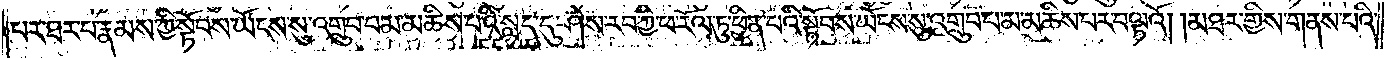པར་ཐར་པ་རྣམས་ཀྱི་སྟོབས་ཡོངས་སུ་འགྲུབ་པ་མ་མཆིས་པའི་སླད་དུ་ཤེས་རབ་ཀྱི་ཕ་རོལ་ཏུ་ཕྱིན་པའི་སྟོབས་ཡོངས་སུ་འགྲུབ་པ་མ་མཆིས་པར་བལྟའོ། །མཐར་གྱིས་གནས་པའི་
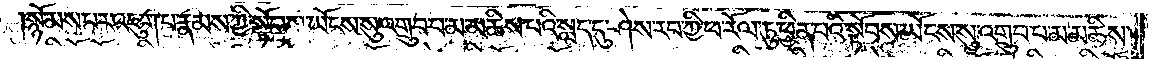སྙོམས་པར་འཇུག་པ་རྣམས་ཀྱི་སྟོབས་ཡོངས་སུ་འགྲུབ་པ་མ་མཆིས་པའི་སླད་དུ་ཤེས་རབ་ཀྱི་ཕ་རོལ་ཏུ་ཕྱིན་པའི་སྟོབས་ཡོངས་སུ་འགྲུབ་པ་མ་མཆིས་
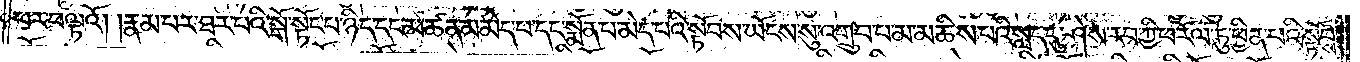པར་བལྟའོ། །རྣམ་པར་ཐར་པའི་སྒོ་སྟོང་པ་ཉིད་དང་མཚན་མ་མེད་པ་དང་སྨོན་པ་མེད་པའི་སྟོབས་ཡོངས་སུ་འགྲུབ་པ་མ་མཆིས་པའི་སླད་དུ་ཤེས་རབ་ཀྱི་ཕ་རོལ་ཏུ་ཕྱིན་པའི་སྟོབས་
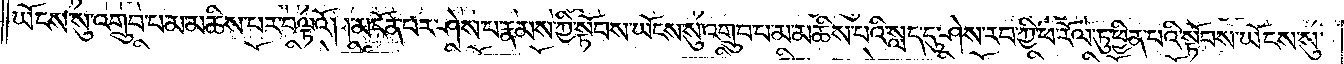ཡོངས་སུ་འགྲུབ་པ་མ་མཆིས་པར་བལྟའོ། །མངོན་པར་ཤེས་པ་རྣམས་ཀྱི་སྟོབས་ཡོངས་སུ་འགྲུབ་པ་མ་མཆིས་པའི་སླད་དུ་ཤེས་རབ་ཀྱི་ཕ་རོལ་ཏུ་ཕྱིན་པའི་སྟོབས་ཡོངས་སུ་
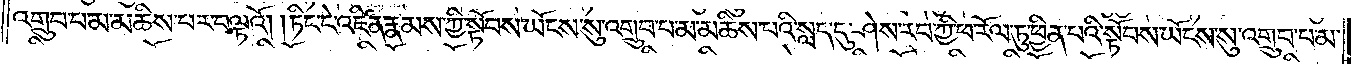འགྲུབ་པ་མ་མཆིས་པར་བལྟའོ། །ཏིང་ངེ་འཛིན་རྣམས་ཀྱི་སྟོབས་ཡོངས་སུ་འགྲུབ་པ་མ་མཆིས་པའི་སླད་དུ་ཤེས་རབ་ཀྱི་ཕ་རོལ་ཏུ་ཕྱིན་པའི་སྟོབས་ཡོངས་སུ་འགྲུབ་པ་མ་
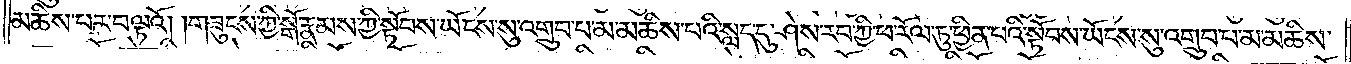མཆིས་པར་བལྟའོ། །གཟུངས་ཀྱི་སྒོ་རྣམས་ཀྱི་སྟོབས་ཡོངས་སུ་འགྲུབ་པ་མ་མཆིས་པའི་སླད་དུ་ཤེས་རབ་ཀྱི་ཕ་རོལ་ཏུ་ཕྱིན་པའི་སྟོབས་ཡོངས་སུ་འགྲུབ་པ་མ་མཆིས་
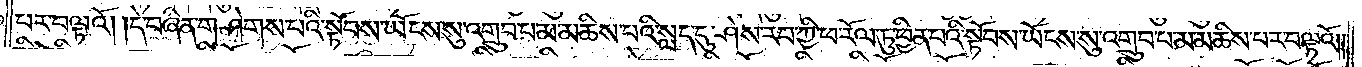པར་བལྟའོ། །དེ་བཞིན་གཤེགས་པའི་སྟོབས་རྣམས་ཀྱི་སྟོབས་ཡོངས་སུ་འགྲུབ་པ་མ་མཆིས་པའི་སླད་དུ་ཤེས་རབ་ཀྱི་ཕ་རོལ་ཏུ་ཕྱིན་པའི་སྟོབས་ཡོངས་སུ་འགྲུབ་པ་མ་མཆིས་པར་བལྟའོ། །
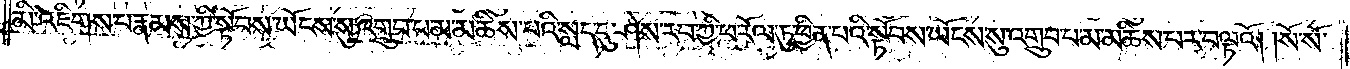མི་འཇིགས་པ་རྣམས་ཀྱི་སྟོབས་ཡོངས་སུ་འགྲུབ་པ་མ་མཆིས་པའི་སླད་དུ་ཤེས་རབ་ཀྱི་ཕ་རོལ་ཏུ་ཕྱིན་པའི་སྟོབས་ཡོངས་སུ་འགྲུབ་པ་མ་མཆིས་པར་བལྟའོ། །སོ་སོ་
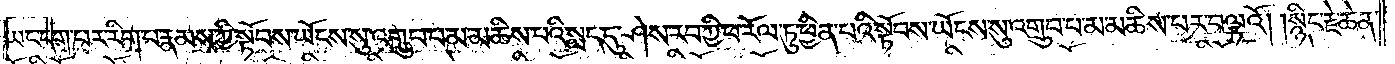ཡང་དག་པར་རིག་པ་རྣམས་ཀྱི་སྟོབས་ཡོངས་སུ་འགྲུབ་པ་མ་མཆིས་པའི་སླད་དུ་ཤེས་རབ་ཀྱི་ཕ་རོལ་ཏུ་ཕྱིན་པའི་སྟོབས་ཡོངས་སུ་འགྲུབ་པ་མ་མཆིས་པར་བལྟའོ། །སྙིང་རྗེ་ཆེན་
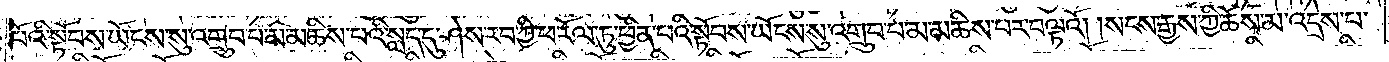པོའི་སྟོབས་ཡོངས་སུ་འགྲུབ་པ་མ་མཆིས་པའི་སླད་དུ་ཤེས་རབ་ཀྱི་ཕ་རོལ་ཏུ་ཕྱིན་པའི་སྟོབས་ཡོངས་སུ་འགྲུབ་པ་མ་མཆིས་པར་བལྟའོ། །སངས་རྒྱས་ཀྱི་ཆོས་མ་འདྲེས་པ་
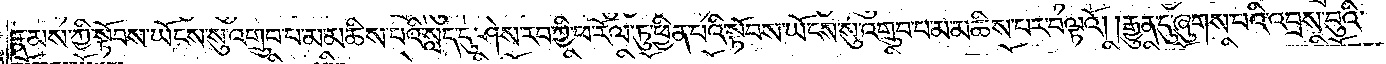རྣམས་ཀྱི་སྟོབས་ཡོངས་སུ་འགྲུབ་པ་མ་མཆིས་པའི་སླད་དུ་ཤེས་རབ་ཀྱི་ཕ་རོལ་ཏུ་ཕྱིན་པའི་སྟོབས་ཡོངས་སུ་འགྲུབ་པ་མ་མཆིས་པར་བལྟའོ། །རྒྱུན་དུ་ཞུགས་པའི་འབྲས་བུའི་
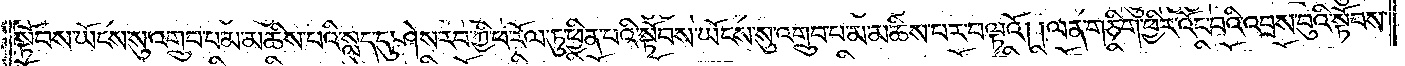སྟོབས་ཡོངས་སུ་འགྲུབ་པ་མ་མཆིས་པའི་སླད་དུ་ཤེས་རབ་ཀྱི་ཕ་རོལ་ཏུ་ཕྱིན་པའི་སྟོབས་ཡོངས་སུ་འགྲུབ་པ་མ་མཆིས་པར་བལྟའོ། །ལན་གཅིག་ཕྱིར་འོང་བའི་འབྲས་བུའི་སྟོབས་
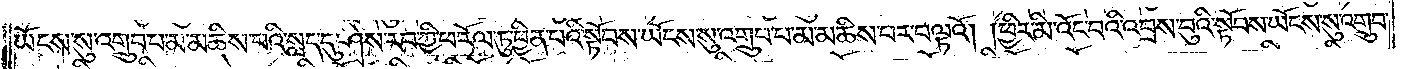ཡོངས་སུ་འགྲུབ་པ་མ་མཆིས་པའི་སླད་དུ་ཤེས་རབ་ཀྱི་ཕ་རོལ་ཏུ་ཕྱིན་པའི་སྟོབས་ཡོངས་སུ་འགྲུབ་པ་མ་མཆིས་པར་བལྟའོ། །ཕྱིར་མི་འོང་བའི་འབྲས་བུའི་སྟོབས་ཡོངས་སུ་འགྲུབ་
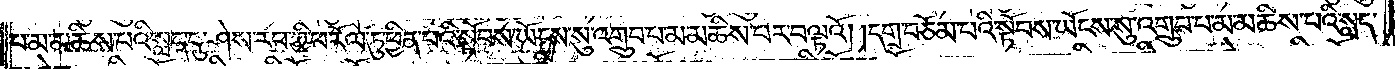པ་མ་མཆིས་པའི་སླད་དུ་ཤེས་རབ་ཀྱི་ཕ་རོལ་ཏུ་ཕྱིན་པའི་སྟོབས་ཡོངས་སུ་འགྲུབ་པ་མ་མཆིས་པར་བལྟའོ། །དགྲ་བཅོམ་པའི་སྟོབས་ཡོངས་སུ་འགྲུབ་པ་མ་མཆིས་པའི་སླད་
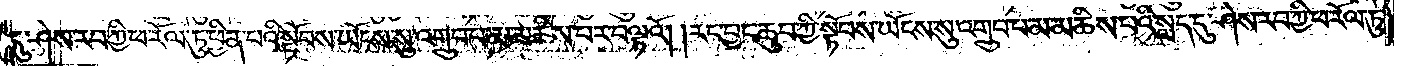དུ་ཤེས་རབ་ཀྱི་ཕ་རོལ་ཏུ་ཕྱིན་པའི་སྟོབས་ཡོངས་སུ་འགྲུབ་པ་མ་མཆིས་པར་བལྟའོ། །རང་བྱང་ཆུབ་ཀྱི་སྟོབས་ཡོངས་སུ་འགྲུབ་པ་མ་མཆིས་པའི་སླད་དུ་ཤེས་རབ་ཀྱི་ཕ་རོལ་ཏུ་
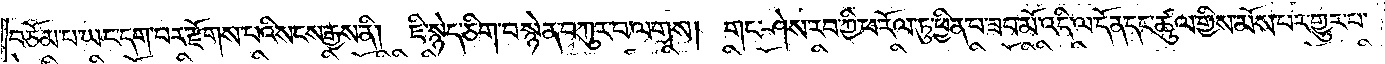བཅོམ་པ་ཡང་དག་པར་རྫོགས་པའི་སངས་རྒྱས་ནི། ཇི་སྙེད་ཅིག་བསྙེན་བཀུར་བ་ལགས། གང་ཤེས་རབ་ཀྱི་ཕ་རོལ་ཏུ་ཕྱིན་པ་ཟབ་མོ་འདི་ལ་དོན་དང་ཚུལ་གྱིས་མོས་པར་འགྱུར་བ་
